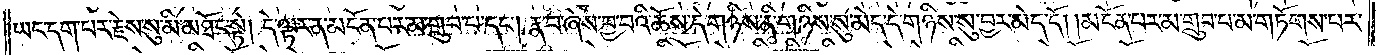ཡང་དག་པར་རྗེས་སུ་མི་མཐོང་སྟེ། དེ་ལྟར་ན་མངོན་པར་མ་གྲུབ་པ་དང༌། རྣ་བ་ཞེས་བྱ་བའི་ཆོས་དེ་གཉིས་ནི་གཉིས་སུ་མེད་དེ་གཉིས་སུ་བྱར་མེད་དོ། །མངོན་པར་མ་གྲུབ་པ་མ་གཏོགས་པར་
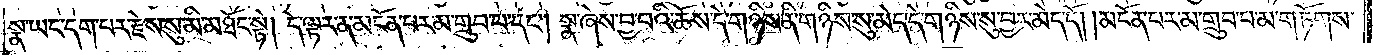སྣ་ཡང་དག་པར་རྗེས་སུ་མི་མཐོང་སྟེ། དེ་ལྟར་ན་མངོན་པར་མ་གྲུབ་པ་དང༌། སྣ་ཞེས་བྱ་བའི་ཆོས་དེ་གཉིས་ནི་གཉིས་སུ་མེད་དེ་གཉིས་སུ་བྱར་མེད་དོ། །མངོན་པར་མ་གྲུབ་བ་མ་གཏོགས་
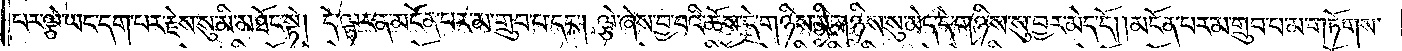པར་ལྕེ་ཡང་དག་པར་རྗེས་སུ་མི་མཐོང་སྟེ། དེ་ལྟར་ན་མངོན་པར་མ་གྲུབ་པ་དང༌། ལྕེ་ཞེས་བྱ་བའི་ཆོས་དེ་གཉིས་ནི་གཉིས་སུ་མེད་དེ་གཉིས་སུ་བྱར་མེད་དོ། །མངོན་པར་མ་གྲུབ་པ་མ་གཏོགས་
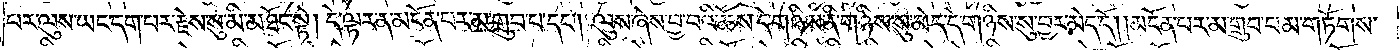པར་ལུས་ཡང་དག་པར་རྗེས་སུ་མི་མཐོང་སྟེ། དེ་ལྟར་ན་མངོན་པར་མ་གྲུབ་པ་དང༌། ལུས་ཞེས་བྱ་བའི་ཆོས་དེ་གཉིས་ནི་གཉིས་སུ་མེད་དེ་གཉིས་སུ་བྱར་མེད་དོ། །མངོན་པར་མ་གྲུབ་པ་མ་གཏོགས་
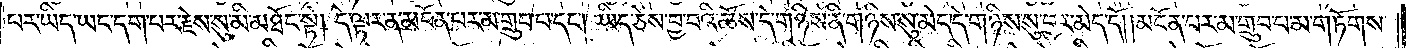པར་ཡིད་ཡང་དག་པར་རྗེས་སུ་མི་མཐོང་སྟེ། དེ་ལྟར་ན་མངོན་པར་མ་གྲུབ་པ་དང༌། ཡིད་ཅེས་བྱ་བའི་ཆོས་དེ་གཉིས་ནི་གཉིས་སུ་མེད་དེ་གཉིས་སུ་བྱར་མེད་དོ། །མངོན་པར་མ་གྲུབ་པ་མ་གཏོགས་
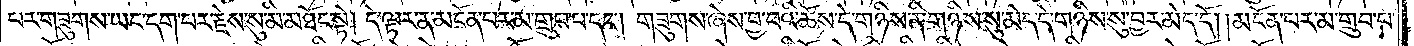པར་གཟུགས་ཡང་དག་པར་རྗེས་སུ་མི་མཐོང་སྟེ། དེ་ལྟར་ན་མངོན་པར་མ་གྲུབ་པ་དང༌། གཟུགས་ཞེས་བྱ་བའི་ཆོས་དེ་གཉིས་ནི་གཉིས་སུ་མེད་དེ་གཉིས་སུ་བྱར་མེད་དོ། །མངོན་པར་མ་གྲུབ་པ་
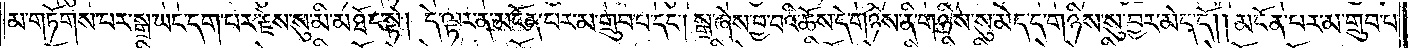མ་གཏོགས་པར་སྒྲ་ཡང་དག་པར་རྗེས་སུ་མི་མཐོང་སྟེ། དེ་ལྟར་ན་མངོན་པར་མ་གྲུབ་པ་དང༌། སྒྲ་ཞེས་བྱ་བའི་ཆོས་དེ་གཉིས་ནི་གཉིས་སུ་མེད་དེ་གཉིས་སུ་བྱར་མེད་དོ། མངོན་པར་མ་གྲུབ་པ་
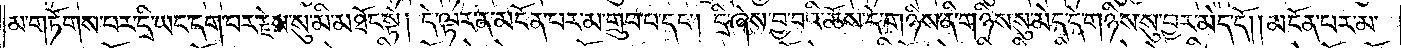མ་གཏོགས་པར་དྲི་ཡང་དག་པར་རྗེས་སུ་མི་མཐོང་སྟེ། དེ་ལྟར་ན་མངོན་པར་མ་གྲུབ་པ་དང༌། དྲི་ཞེས་བྱ་བའི་ཆོས་དེ་གཉིས་ནི་གཉིས་སུ་མེད་དེ་གཉིས་སུ་བྱར་མེད་དོ། མངོན་པར་མ་
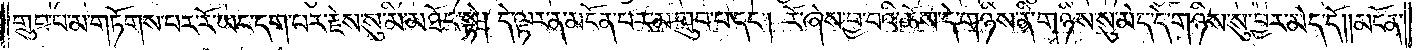གྲུབ་པ་མ་གཏོགས་པར་རོ་ཡང་དག་པར་རྗེས་སུ་མི་མཐོང་སྟེ། དེ་ལྟར་ན་མངོན་པར་མ་གྲུབ་པ་དང༌། རོ་ཞེས་བྱ་བའི་ཆོས་དེ་གཉིས་ནི་གཉིས་སུ་མེད་དེ་གཉིས་སུ་བྱར་མེད་དོ། །མངོན་
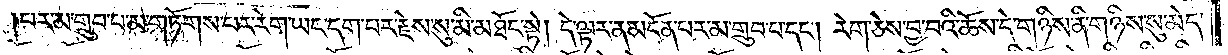པར་མ་གྲུབ་པ་མ་གཏོགས་པར་རེག་ཡང་དག་པར་རྗེས་སུ་མི་མཐོང་སྟེ། དེ་ལྟར་ན་མངོན་པར་མ་གྲུབ་པ་དང༌། རེག་ཅེས་བྱ་བའི་ཆོས་དེ་གཉིས་ནི་གཉིས་སུ་མེད་
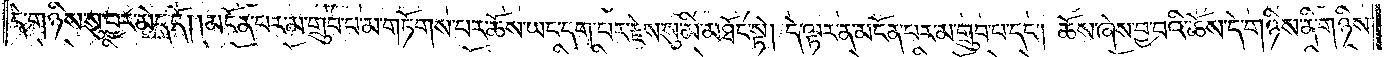དེ་གཉིས་སུ་བྱར་མེད་དོ། །མངོན་པར་མ་གྲུབ་པ་མ་གཏོགས་པར་ཆོས་ཡང་དག་པར་རྗེས་སུ་མི་མཐོང་སྟེ། དེ་ལྟར་ན་མངོན་པར་མ་གྲུབ་པ་དང༌། ཆོས་ཞེས་བྱ་བའི་ཆོས་དེ་གཉིས་ནི་གཉིས་
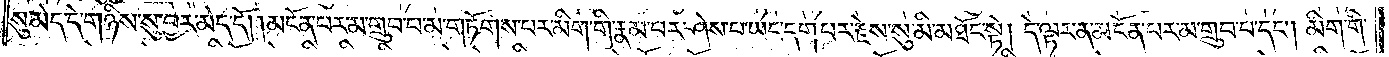སུ་མེད་དེ་གཉིས་སུ་བྱར་མེད་དོ། །མངོན་པར་མ་གྲུབ་པ་མ་གཏོགས་པར་མིག་གི་རྣམ་པར་ཤེས་པ་ཡང་དག་པར་རྗེས་སུ་མི་མཐོང་སྟེ། དེ་ལྟར་ན་མངོན་པར་མ་གྲུབ་པ་དང༌། མིག་གི་
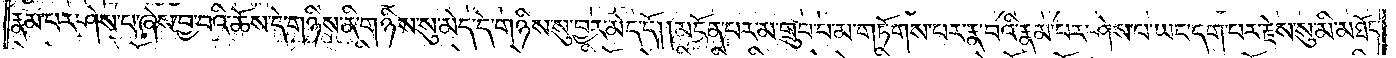རྣམ་པར་ཤེས་པ་ཞེས་བྱ་བའི་ཆོས་དེ་གཉིས་ནི་གཉིས་སུ་མེད་དེ་གཉིས་སུ་བྱར་མེད་དོ། །མངོན་པར་མ་གྲུབ་པ་མ་གཏོགས་པར་རྣ་བའི་རྣམ་པར་ཤེས་པ་ཡང་དག་པར་རྗེས་སུ་མི་མཐོང་
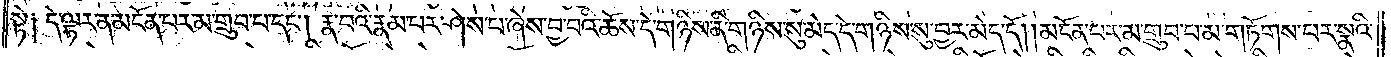སྟེ༑ དེ་ལྟར་ན་མངོན་པར་མ་གྲུབ་པ་དང༌། རྣ་བའི་རྣམ་པར་ཤེས་པ་ཞེས་བྱ་བའི་ཆོས་དེ་གཉིས་ནི་གཉིས་སུ་མེད་དེ་གཉིས་སུ་བྱར་མེད་དོ། །མངོན་པར་མ་གྲུབ་པ་མ་གཏོགས་པར་སྣའི་
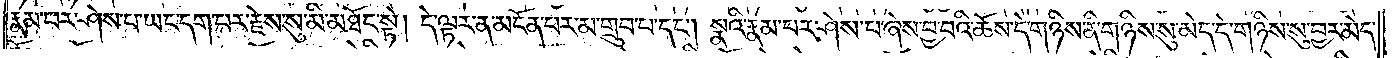རྣམ་པར་ཤེས་པ་ཡང་དག་པར་རྗེས་སུ་མི་མཐོང་སྟེ། དེ་ལྟར་ན་མངོན་པར་མ་གྲུབ་པ་དང༌། སྣའི་རྣམ་པར་ཤེས་པ་ཞེས་བྱ་བའི་ཆོས་དེ་གཉིས་ནི་གཉིས་སུ་མེད་དེ་གཉིས་སུ་བྱར་མེད་
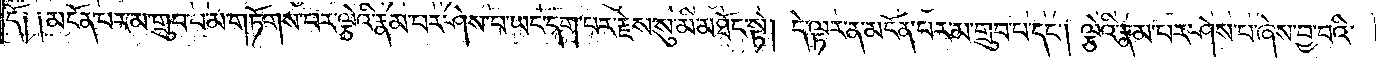དོ༑ ༑མངོན་པར་མ་གྲུབ་པ་མ་གཏོགས་པར་ལྕེའི་རྣམ་པར་ཤེས་པ་ཡང་དག་པར་རྗེས་སུ་མ་མི་མཐོང་སྟེ། དེ་ལྟར་ན་མངོན་པར་མ་གྲུབ་པ་དང༌། ལྕེའི་རྣམ་པར་ཤེས་པ་ཞེས་བྱ་བའི་
